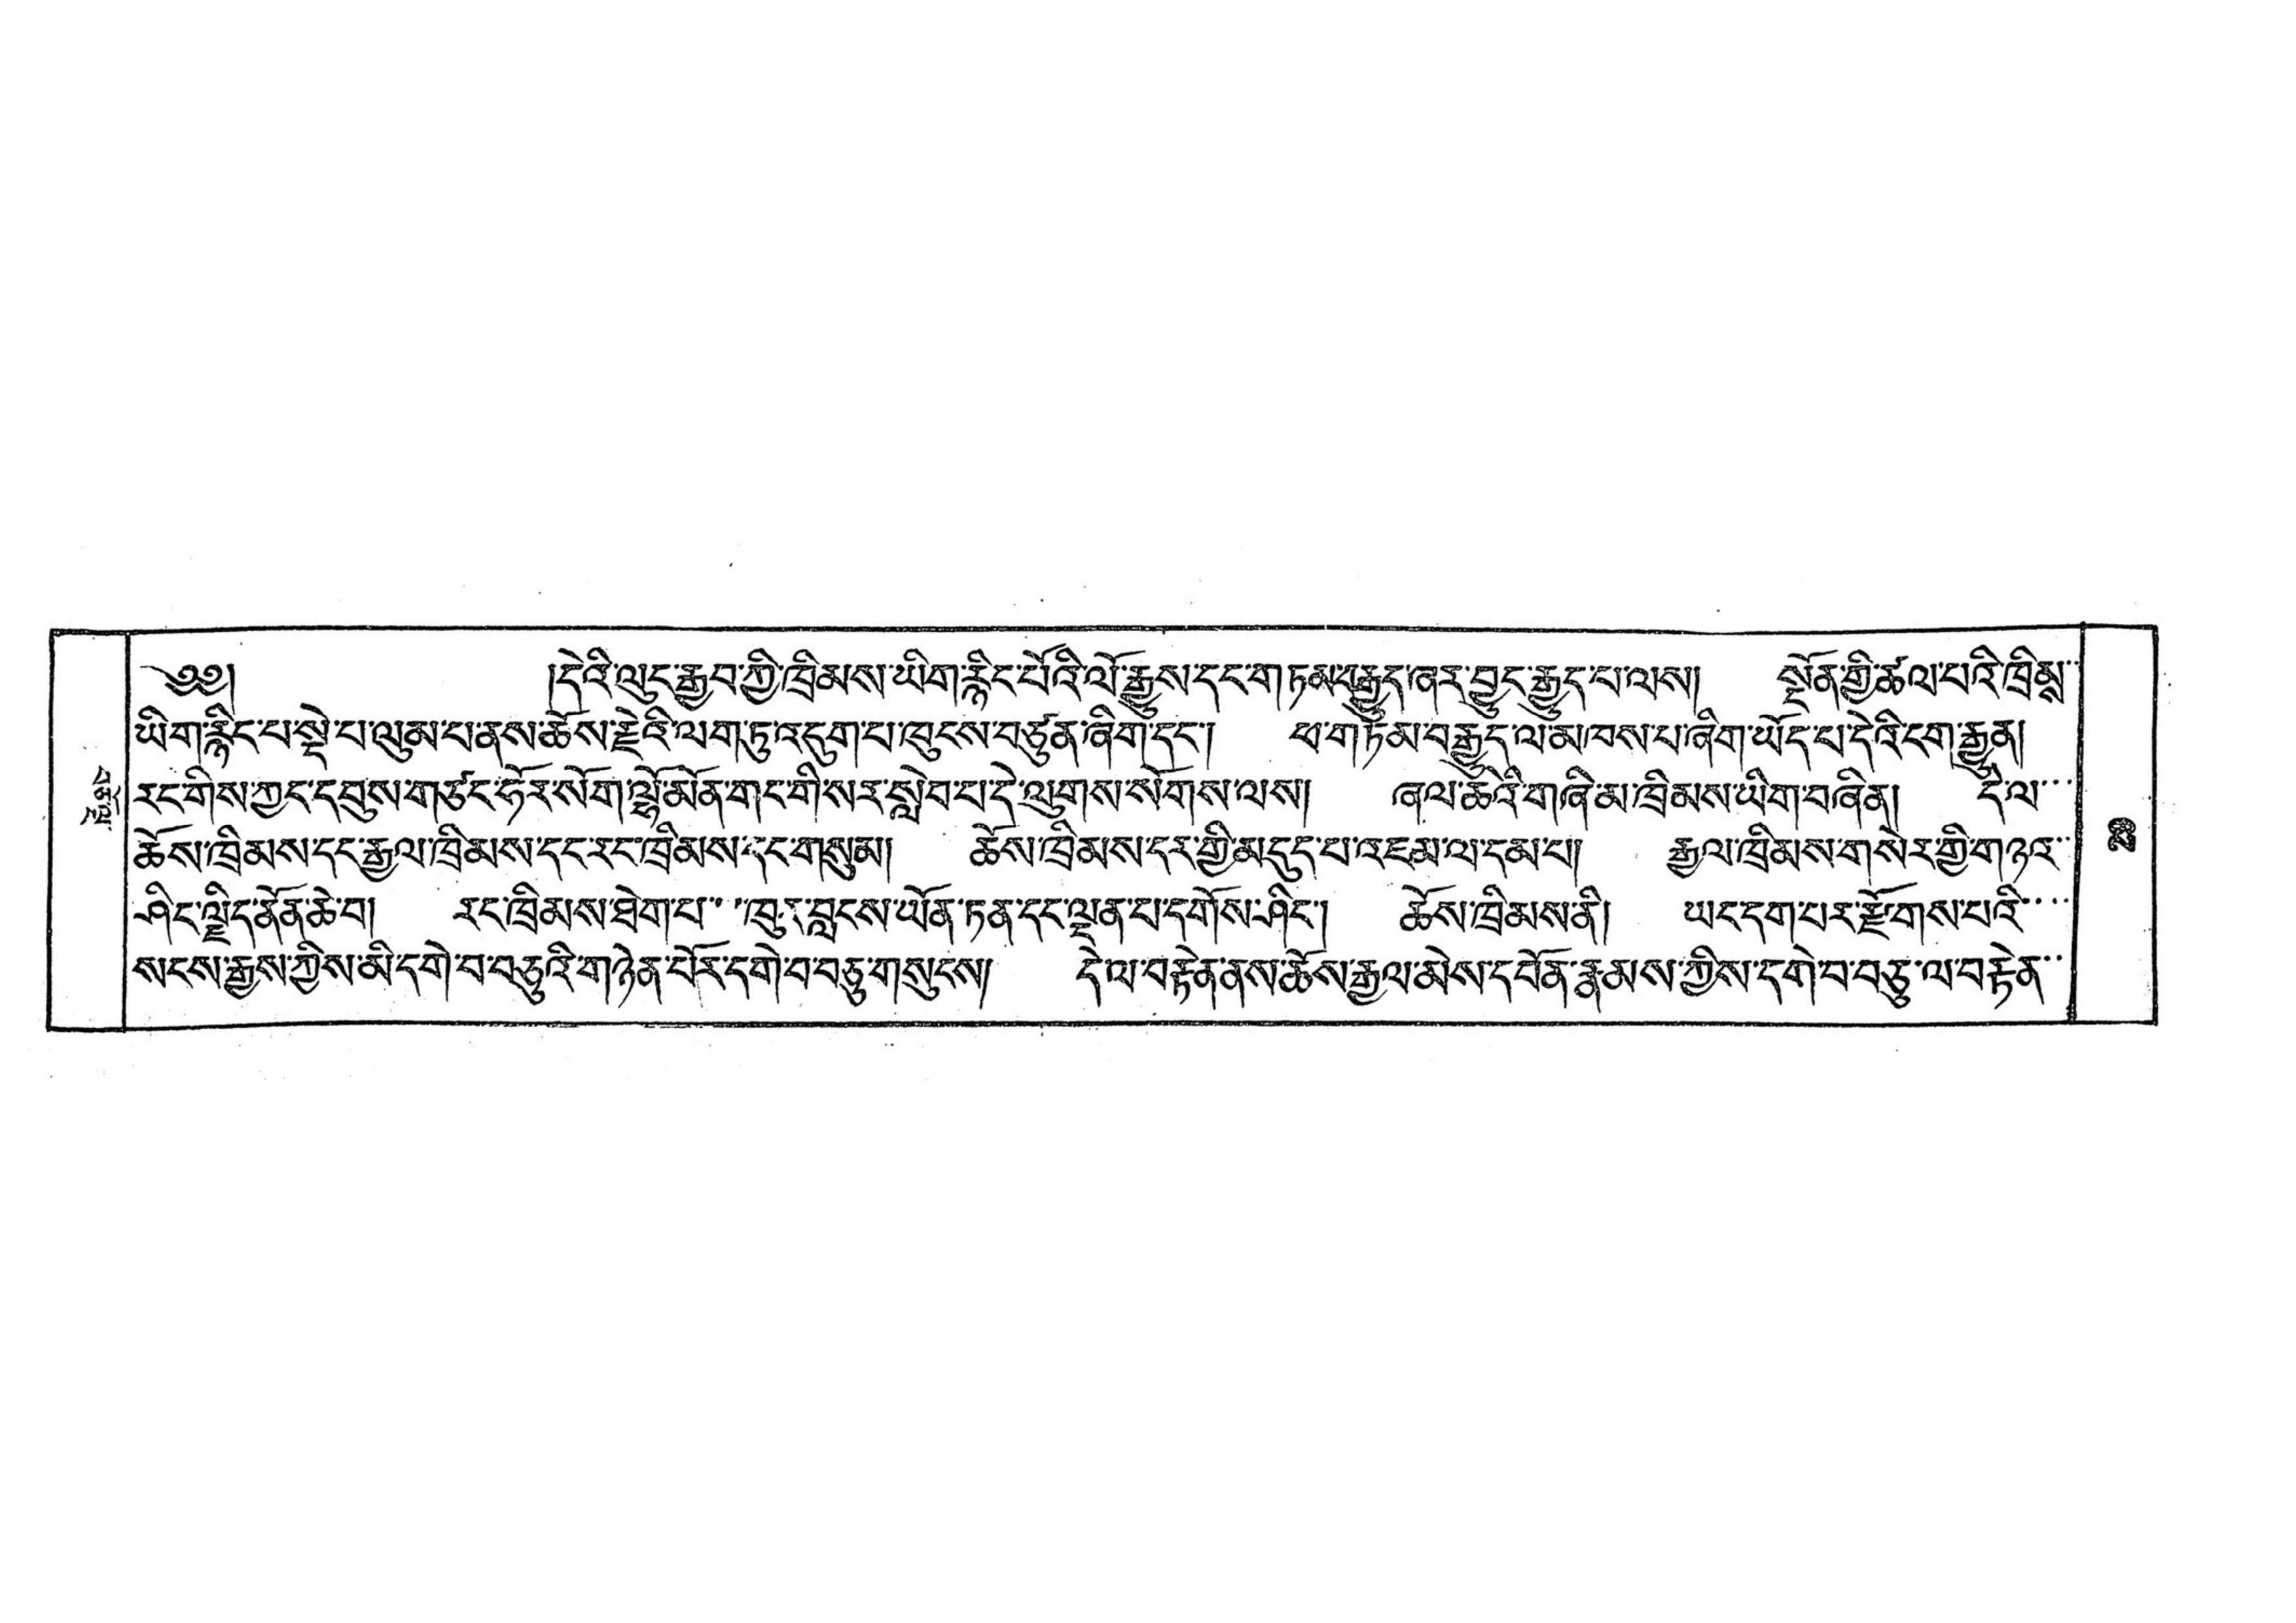བཅོ་ལྔ་
༄༅། །དེའི་ལུང་རྒྱབ་ཀྱི་ཁྲིམས་ཡིག་རྙིང་པོའི་ལོ་རྒྱུས་དང་གཏམ་རྒྱུད་ཞར་བྱུང་རྒྱུད་པ་ལས། སྔོན་གྱི་ཚལ་པའི་ཁྲིམས་་
ཡིག་རྙིང་པ་སྡེ་པ་ལུམ་པ་ནས་ཆོས་རྗེའི་ལག་ཏུ་འདུག་པ་ཁུངས་བཙུན་ཞིག་དང་། ཕ་གཏམ་བརྒྱུད་ལ་མཁས་པ་ཞིག་ཡོད་པ་དེའི་ངག་རྒྱུན།
རང་གིས་ཀྱང་དབུས་གཙང་ཧོར་སོག་ལྷོ་མོན་གང་གི་སར་སླེབ་པ་དེ་ལུགས་སོགས་ལས། ཞལ་ཆེའི་གཞི་མ་ཁྲིམས་ཡིག་བཞིན། དེ་ལ་་་
ཆོས་ཁྲིམས་དང་རྒྱལ་ཁྲིམས་དང་རང་ཁྲིམས་དང་གསུམ། ཆོས་ཁྲིམས་དར་གྱི་མདུད་པ་འཇམ་ལ་དམ་པ། རྒྱལ་ཁྲིམས་གསེར་གྱི་གཉའ་་
ཤིད་ལྗིད་ནོན་ཆེ་བ། རང་ཁྲིམས་ཐེག་པ་ ་ཁུར་བླངས་ཡོན་ཏན་དང་ལྡན་པ་དགོས་ཤིང་། ཆོས་ཁྲིམས་ནི། ཡང་དག་པར་རྫོགས་པའི་་་
སངས་རྒྱས་ཀྱིས་མི་དགེ་བ་བཅུའི་གཉེན་པོར་དགེ་བ་བཅུ་གསུངས། དེ་ལ་བརྟེན་ནས་ཆོས་རྒྱལ་མེས་དབོན་རྣམས་ཀྱིས་དགེ་བ་བཅུ་ལ་བརྟེན་་
